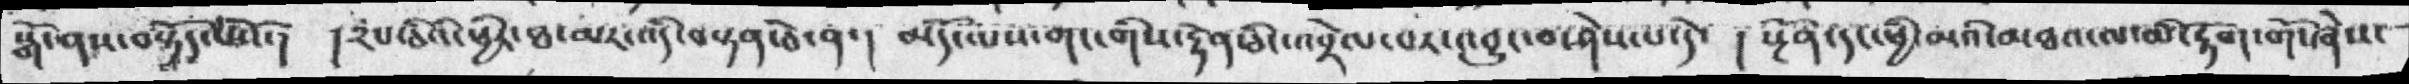སྒོ་ནས་བསྟོད་པའོ་།  །༢པ་ཅིའི་ཕྱིར་ཐ་མར་འདི་བསྟན་ཅེ་ན་། མདོ་ལས་གང་གིས་རྟེན་ཅིང་འབྲེལ་བར་འབྱུང་བ་ཤེས་པ་དེ་། སྔོན་དང་ཕྱི་མའི་མཐའ་ལ་མི་རྟོག་གོ་ཞེས་
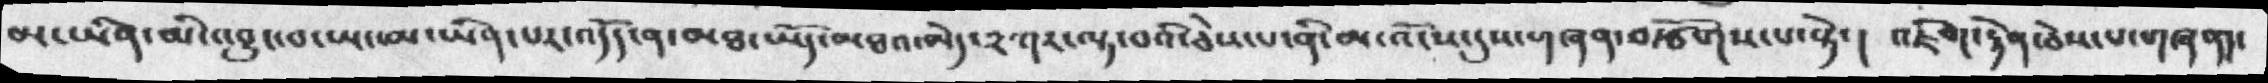མ་ཡིན་མི་འབྱུང་བ་ཡང་མ་ཡིན་པར་འདོད་ན་མཐ་ཡོད་མཐའ་མེད་༢ཀར་ལྟ་བའི་ཅེས་པ་ནི་མ་འོངས་དུས་གཞན་བརྩོགས་པ་སྟེ་། འཇིག་རྟེན་ཅེས་པ་གཞན།་
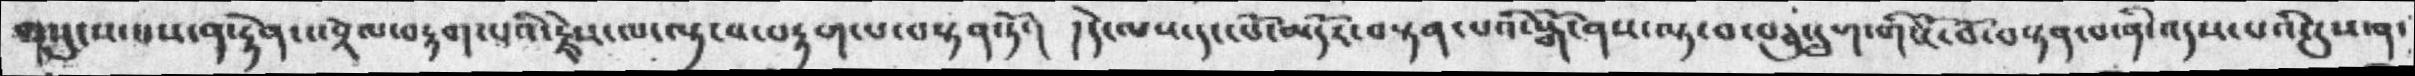གསུངས་པས་ན་རྟེན་འབྲེལ་བརྟག་པའི་རྗེས་ལ་ལྟ་བ་བརྟག་པ་བསྟན་ཏོ་། །དེ་ལས་དང་པོ་མདོར་བསྟན་པའི་སྒོ་ནས་ལྟ་བ་བཅུ་དྲུག་གི་ངོ་བོ་བསྟན་པ་ནི་འདས་པའི་དུས་ན་
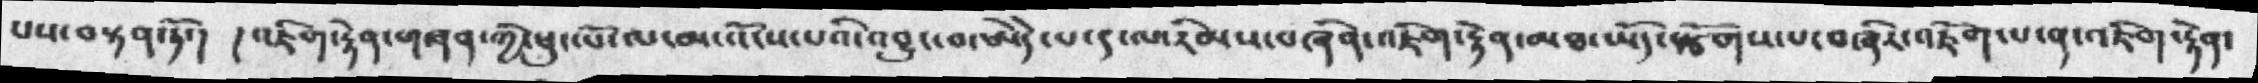པས་བསྟན་ཏོ་། །འཇིག་རྟེབ་གཞན་ཀྱི་ཕུང་པོ་ལ་མ་འོངས་པའི་འབྱུང་བ་ཨེདེ་པ་༩་ལ་རིམས་བཞིན་འཇིག་རྟེན་མཐ་ཡོད་སྩོགས་པ་བཞིར་འཇོག་པ་ན་འཇིག་རྟེན་
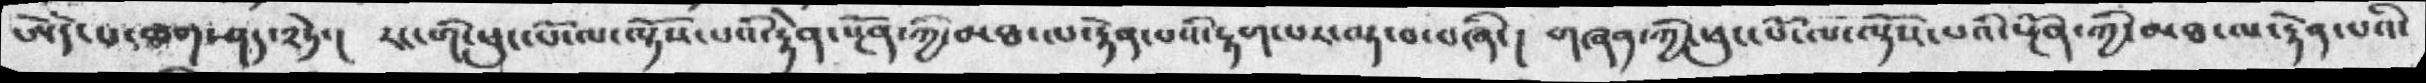ཨེདེ་པ་ཚིག་ཤད་༢ཏེ་། རང་གི་ཕུང་པོ་ལ་ལྟོས་པའི་རྟེན་སྔོན་ཀྱི་མཐ་ལ་རྟེན་པའི་རྟག་པར་ལྟ་བ་བཞི་། གཞན་ཀྱི་ཕུང་པོ་ལ་ལྟོས་པའི་སྔོན་ཀྱི་མཐ་ལ་རྟེན་པའི་
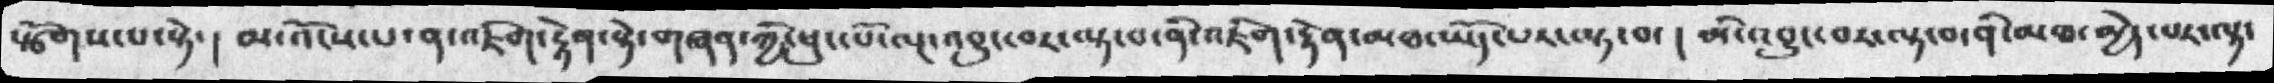སྩོགས་པ་སྟེ་། མ་འོངས་པ་ན་འཇིག་རྟེན་སྟེ་གཞན་ཀྱི་ཕུང་པོ་ལྔ་འབྱུང་བར་ལྟ་བ་ནི་འཇིག་རྟེན་མཐ་ཡོད་པར་ལྟ་བ་། མི་འབྱུང་བར་ལྟ་བ་ནི་མཐ་མྱེད་པར་ལྟ་
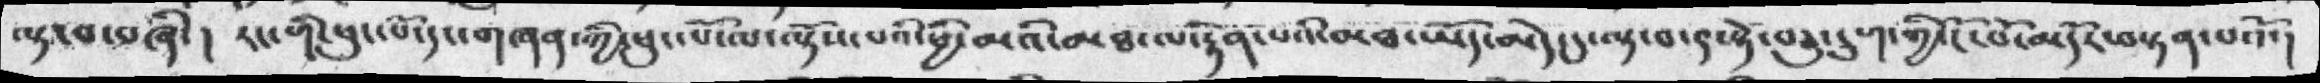ལྟ་བ་བཞི་། རང་གི་ཕུང་པོ་དང་གཞན་ཀྱི་ཕུང་པོ་ལ་ལྟོས་པའི་ཕྱི་མའི་མཏ་ལ་རྟོན་པའི་མཐ་ཡོད་མེད་དུ་ལྟ་བ་༩་སྟེ་བཅུ་དྲུག་ཀྱི་ངོ་བོ་མདོར་བསྟན་པའོ་།
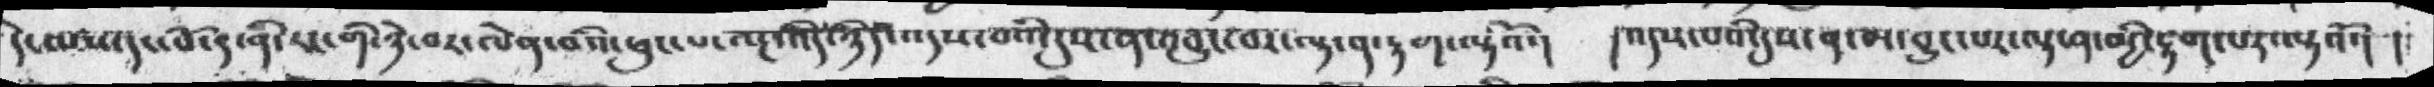དེ་ལས་དང་པོ་༩་ནི་རང་གི་ཉེ་བར་ལེན་བའི་ཕུང་པ་ལྔ་འདི་ཉིད་འདས་པའི་དུས་ན་འབྱུང་བར་ལྟ་ན་རྟག་ལྟའོ་། །འདས་པའི་དུས་ན་མ་བྱུང་པར་ལྟ་ན་མྱི་རྟག་པར་ལྟའོ་། །
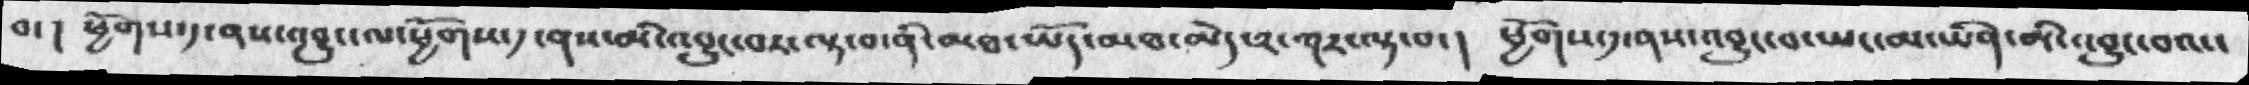བ་། ཕྱོགས་༡་ནས་འབྱུང་ལ་ཕྱོགས་༡་ནས་མི་འབྱུང་བར་ལྟ་བ་ནི་མཐ་ཡོད་མཐ་མེད་༢་ཀར་ལྟ་བ་། ཕྱོགས་༡་ནས་འབྱུང་བ་ཡང་མ་ཡིན་མི་འབྱུང་བའང་
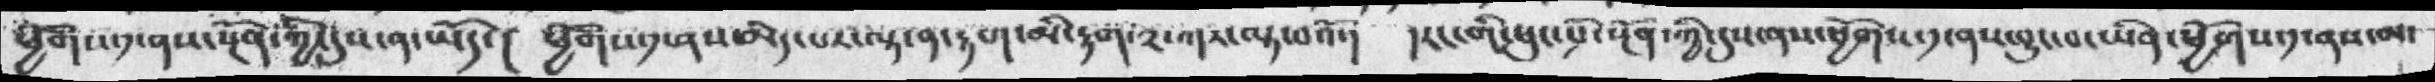ཕྱོགས་༡་ནས་སྔོན་ཀྱི་དུས་ན་ཡོད་། ཕྱོགས་༡་ནས་མེད་པར་ལྟ་ན་རྟག་མི་རྟག་༢་ཀར་ལྟ་བའོ་།  །རང་གི་ཕུང་པོ་སྔོན་ཀྱི་དུས་ནས་ཕྱོགས་༡་ནས་བྱུང་བ་ཡིན་ཕྱོགས་༡་ནས་མ་
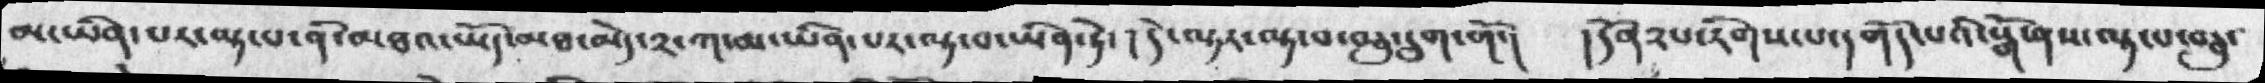མ་ཡིན་པར་ལྟ་པ་ནི་མཐའ་ཡོད་མཐའ་མེད་༢་ཀ་མ་ཡིན་པར་ལྟ་བ་ཡིན་ཏེ་། དེ་ལྟར་ལྟ་བ་བཅུ་དྲུག་གོ་།  །དོན༢པ་རིགས་པ་དགོད་པའི་སྒོ་ནས་ལྟ་པ་བཅུ་
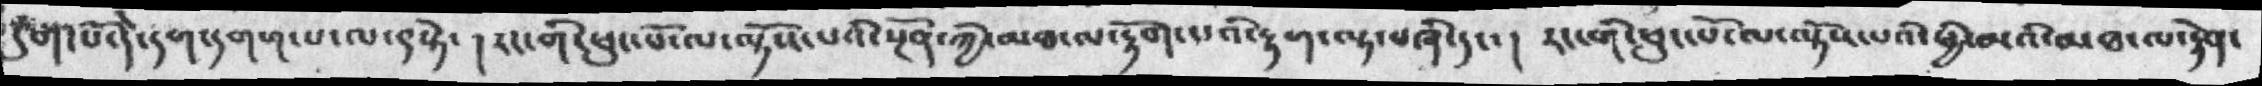དྲུག་པོ་དེ་དག་དགག་པ་ལ་༩སྟེ་།  རང་གི་ཕུང་པོ་ལ་ལྟོས་པའི་སྔོན་ཀྱི་མཐ་ལ་རྟོག་པའི་རྟག་ལྟ་བཞི་དང་། རང་གི་ཕུང་པོ་ལ་ལྟོས་པའི་ཕྱི་མའི་མཐ་ལ་རྟེན་
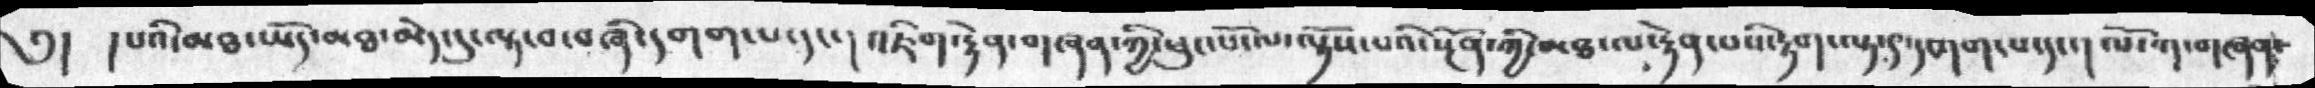༅། །པའི་མཐ་ཡོད་མཐ་མེད་དུ་ལྟ་བ་བཞི་དགག་པ་དང་། འཇིག་རྟེན་གཞན་ཀྱི་ཕུང་པོ་ལ་ལྟོས་པའི་སྔོན་ཀྱི་མཐ་ལ་རྟེན་པས་རྟག་ལྟ་༩་དགག་པ་དང་། ལོ་ཀ་གཞན་
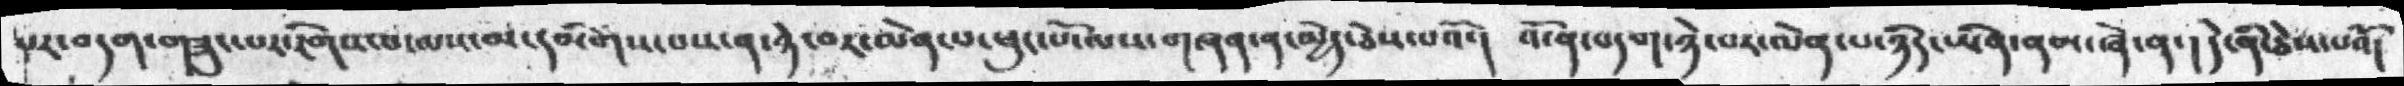པར་བདག་གཟུང་པར་རིགས་པ་ལས་མ་དམིགས་པས་ན་ཉེ་བར་ལེན་པ་ཕུང་པོ་ལས་གཞན་ན་མྱེད་ཅེས་པའོ་། འོ་ན་བདག་ཉེ་བར་ལེན་པ་ཉིད་ཡིན་ནམ་ཞེ་ན་། དེ་ནི་ཅེས་པའོ།
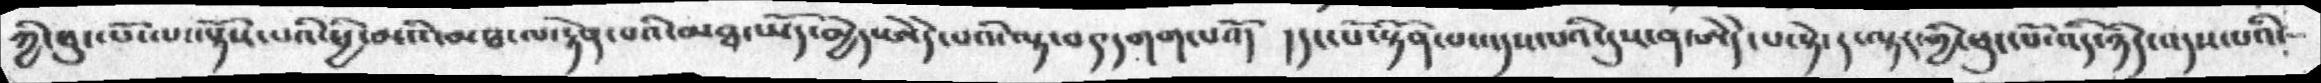ཀྱི་ཕུང་པོ་ལ་ལྟོས་པའི་ཕྱི་མའི་མཐ་ལ་རྟེན་པའི་མཐ་ཡོད་མྱེད་ཨེདེ་པའི་ལྟ་བ༩དགག་པའོ་།  །དང་པོ་སྟོན་པ་འདས་པའི་དུས་ན་ཨེདེ་པ་སྟེ་ད་ལྟར་གྱི་ཕུང་པོ་འདི་ཉིད་འདས་པའི་
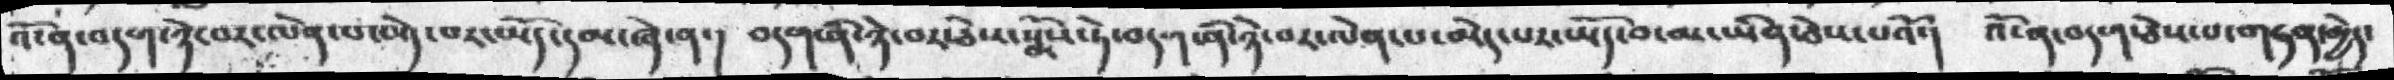འོ་ན་བདག་ཉེ་བར་ལེན་པ་མེད་པར་ཡོད་དམ་ཞེ་ན་། བདག་ནི་ཉེ་བར་ཅེས་སྨོས་ཏེ་བདག་ནི་ཉེ་བར་ལེན་པ་མེད་པར་ཡོད་བ་མ་ཡིན་ཅེས་པའོ་། འོ་ན་བདག་ཅེས་པ་གཏན་ཁྱེད་
